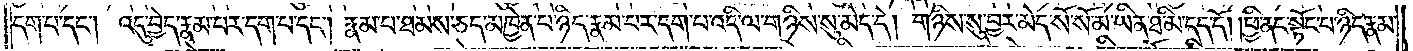དག་པ་དང༌། འདུ་བྱེད་རྣམ་པར་དག་པ་དང༌། རྣམ་པ་ཐམས་ཅད་མཁྱེན་པ་ཉིད་རྣམ་པར་དག་པ་འདི་ལ་གཉིས་སུ་མེད་དེ། གཉིས་སུ་བྱར་མེད་སོ་སོ་མ་ཡིན་ཐ་མི་དད་དོ། །ཕྱི་ནང་སྟོང་པ་ཉིད་རྣམ་
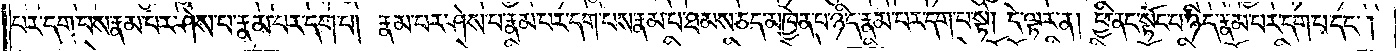པར་དག་པས་རྣམ་པར་ཤེས་པ་རྣམ་པར་དག་པ། རྣམ་པར་ཤེས་པ་རྣམ་པར་དག་པས་རྣམ་པ་ཐམས་ཅད་མཁྱེན་པ་ཉིད་རྣམ་པར་དག་པ་སྟེ། དེ་ལྟར་ན། ཕྱི་ནང་སྟོང་པ་ཉིད་རྣམ་པར་དག་པ་དང༌།
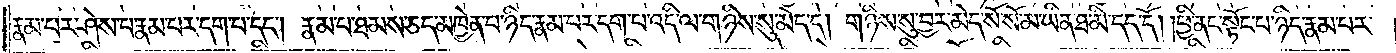རྣམ་པར་ཤེས་པ་རྣམ་པར་དག་པ་དང༌། རྣམ་པ་ཐམས་ཅད་མཁྱེན་པ་ཉིད་རྣམ་པར་དག་པ་འདི་ལ་གཉིས་སུ་མེད་དེ། གཉིས་སུ་བྱར་མེད་སོ་སོ་མ་ཡིན་ཐ་མི་དད་དོ། །ཕྱི་ནང་སྟོང་པ་ཉིད་རྣམ་པར་
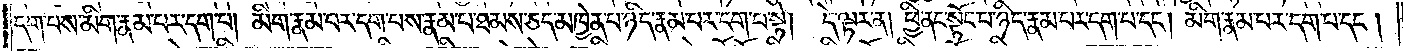དག་པས་མིག་རྣམ་པར་དག་པ། མིག་རྣམ་པར་དག་པས་རྣམ་པ་ཐམས་ཅད་མཁྱེན་པ་ཉིད་རྣམ་པར་དག་པ་སྟེ། དེ་ལྟར་ན། ཕྱི་ནང་སྟོང་པ་ཉིད་རྣམ་པར་དག་པ་དང༌། མིག་རྣམ་པར་དག་པ་དང༌།
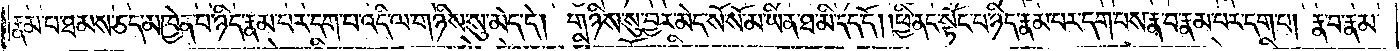རྣམ་པ་ཐམས་ཅད་མཁྱེན་པ་ཉིད་རྣམ་པར་དག་པ་འདི་ལ་གཉིས་སུ་མེད་དེ། གཉིས་སུ་བྱར་མེད་སོ་སོ་མ་ཡིན་ཐ་མི་དད་དོ། །ཕྱི་ནང་སྟོང་པ་ཉིད་རྣམ་པར་དག་པས་རྣ་བ་རྣམ་པར་དག་པ། རྣ་བ་རྣམ་
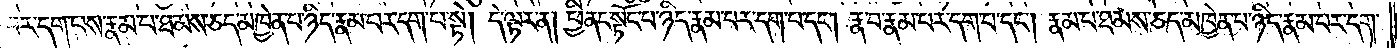པར་དག་པས་རྣམ་པ་ཐམས་ཅད་མཁྱེན་པ་ཉིད་རྣམ་པར་དག་པ་སྟེ། དེ་ལྟར་ན། ཕྱི་ནང་སྟོང་པ་ཉིད་རྣམ་པར་དག་པ་དང༌། རྣ་བ་རྣམ་པར་དག་པ་དང༌། རྣམ་པ་ཐམས་ཅད་མཁྱེན་པ་ཉིད་རྣམ་པར་དག་
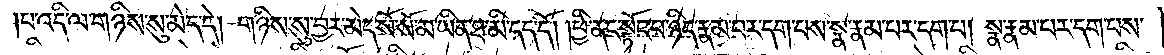པ་འདི་ལ་གཉིས་སུ་མེད་དེ། གཉིས་སུ་བྱར་མེད་སོ་སོ་མ་ཡིན་ཐ་མི་དད་དོ། །ཕྱི་ནང་སྟོང་པ་ཉིད་རྣམ་པར་དག་པས་སྣ་རྣམ་པར་དག་པ། སྣ་རྣམ་པར་དག་པས་
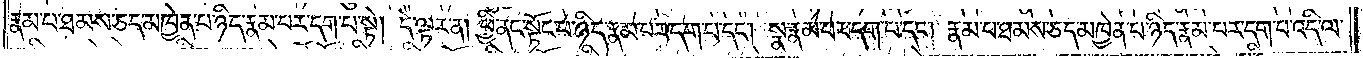རྣམ་པ་ཐམས་ཅད་མཁྱེན་པ་ཉིད་རྣམ་པར་དག་པ་སྟེ། དེ་ལྟར་ན། ཕྱི་ནང་སྟོང་པ་ཉིད་རྣམ་པར་དག་པ་དང༌། སྣ་རྣམ་པར་དག་པ་དང༌། རྣམ་པ་ཐམས་ཅད་མཁྱེན་པ་ཉིད་རྣམ་པར་དག་པ་འདི་ལ་
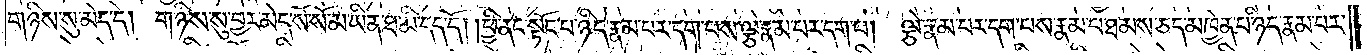གཉིས་སུ་མེད་དེ། གཉིས་སུ་བྱར་མེད་སོ་སོ་མ་ཡིན་ཐ་མི་དད་དོ། །ཕྱི་ནང་སྟོང་པ་ཉིད་རྣམ་པར་དག་པས་ལྕེ་རྣམ་པར་དག་པ། ལྕེ་རྣམ་པར་དག་པས་རྣམ་པ་ཐམས་ཅད་མཁྱེན་པ་ཉིད་རྣམ་པར་
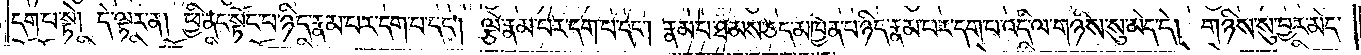དག་པ་སྟེ། དེ་ལྟར་ན། ཕྱི་ནང་སྟོང་པ་ཉིད་རྣམ་པར་དག་པ་དང༌། ལྕེ་རྣམ་པར་དག་པ་དང༌། རྣམ་པ་ཐམས་ཅད་མཁྱེན་པ་ཉིད་རྣམ་པར་དག་པ་འདི་ལ་གཉིས་སུ་མེད་དེ། གཉིས་སུ་བྱར་མེད་
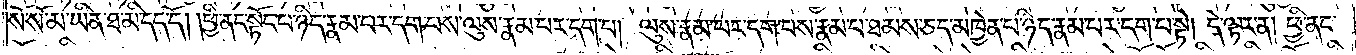སོ་སོ་མ་ཡིན་ཐ་མི་དད་དོ། །ཕྱི་ནང་སྟོང་པ་ཉིད་རྣམ་པར་དག་པས་ལུས་རྣམ་པར་དག་པ། ལུས་རྣམ་པར་དག་པས་རྣམ་པ་ཐམས་ཅད་མཁྱེན་པ་ཉིད་རྣམ་པར་དག་པ་སྟེ། དེ་ལྟར་ན། ཕྱི་ནང་
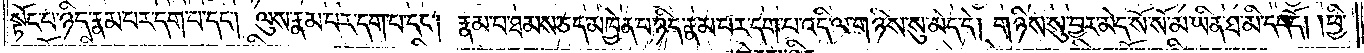སྟོང་པ་ཉིད་རྣམ་པར་དག་པ་དང༌། ལུས་རྣམ་པར་དག་པ་དང༌། རྣམ་པ་ཐམས་ཅད་མཁྱེན་པ་ཉིད་རྣམ་པར་དག་པ་འདི་ལ་གཉིས་སུ་མེད་དེ། གཉིས་སུ་བྱར་མེད་སོ་སོ་མ་ཡིན་ཐ་མི་དད་དོ། །ཕྱི་
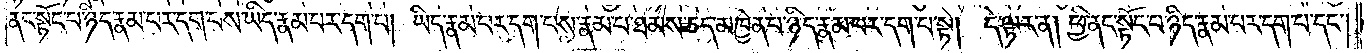ནང་སྟོང་པ་ཉིད་རྣམ་པར་དག་པས་ཡིད་རྣམ་པར་དག་པ། ཡིད་རྣམ་པར་དག་པས་རྣམ་པ་ཐམས་ཅད་མཁྱེན་པ་ཉིད་རྣམ་པར་དག་པ་སྟེ། དེ་ལྟར་ན། ཕྱི་ནང་སྟོང་པ་ཉིད་རྣམ་པར་དག་པ་དང༌།
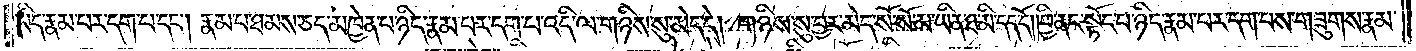ཡིད་རྣམ་པར་དག་པ་དང༌། རྣམ་པ་ཐམས་ཅད་མཁྱེན་པ་ཉིད་རྣམ་པར་དག་པ་འདི་ལ་གཉིས་སུ་མེད་དེ། གཉིས་སུ་བྱར་མེད་སོ་སོ་མ་ཡིན་ཐ་མི་དད་དོ། །ཕྱི་ནང་སྟོང་པ་ཉིད་རྣམ་པར་དག་པས་གཟུགས་རྣམ་
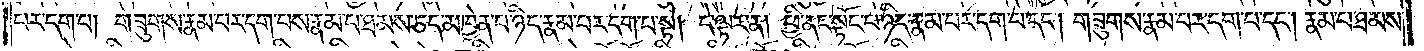པར་དག་པ། གཟུགས་རྣམ་པར་དག་པས་རྣམ་པ་ཐམས་ཅད་མཁྱེན་པ་ཉིད་རྣམ་པར་དག་པ་སྟེ། དེ་ལྟར་ན། ཕྱི་ནང་སྟོང་པ་ཉིད་རྣམ་པར་དག་པ་དང༌། གཟུགས་རྣམ་པར་དག་པ་དང༌། རྣམ་པ་ཐམས་
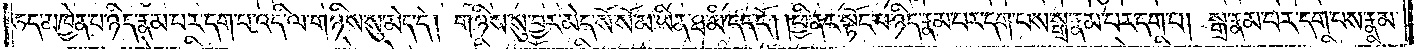ཅད་མཁྱེན་པ་ཉིད་རྣམ་པར་དག་པ་འདི་ལ་གཉིས་སུ་མེད་དེ། གཉིས་སུ་བྱར་མེད་སོ་སོ་མ་ཡིན་ཐ་མི་དད་དོ། །ཕྱི་ནང་སྟོང་པ་ཉིད་རྣམ་པར་དག་པས་སྒྲ་རྣམ་པར་དག་པ། སྒྲ་རྣམ་པར་དག་པས་རྣམ་
